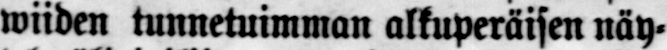wiiden tunnetuimman alkuperäisen näy-
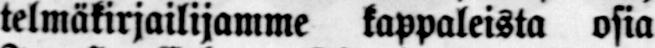telmäkirjailijamme kappaleista osia.
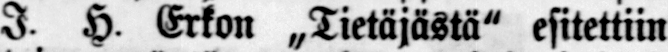I. H. Erkon „Tietäjästä" esitettiin
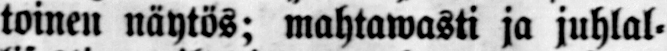toinen näytös; mahtawasti ja juhlal-
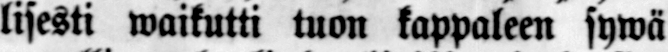lisesti waikutti tuon kappaleen sywä
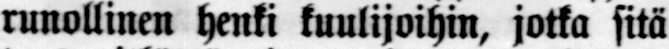runollinen henki kuulijoihin, jotka sitä
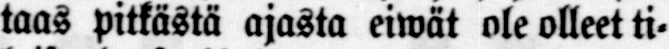taas pitkästä ajasta eiwät ole olleet ti-
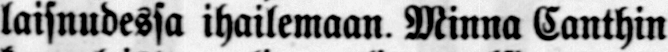laisuudessa ihailemaan. Minna Canthin
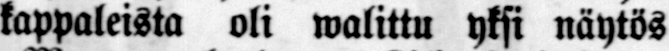kappaleista oli walittu yksi näytös
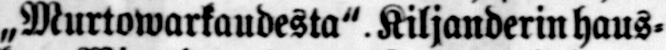„Murtowarkaudesta". Kiljanderin haus-
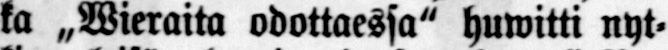ka „Wieraita odottaessa" huwitti nyt-
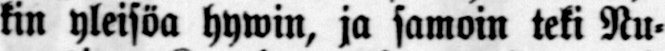kin yleisöä hywin, ja samoin teki Nu-
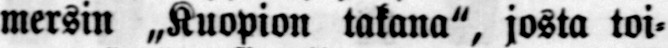mersin „Kuopion takana", josta toi-
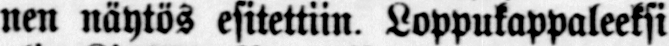nen näytös esitettiin. Loppukappaleeksi
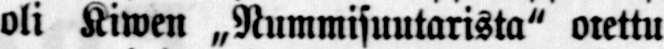oli Kiwen „Nummisuutarista" oiettu
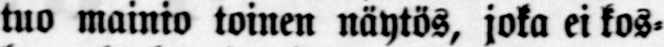tuo mainio toinen näytös, joka ei kos-
